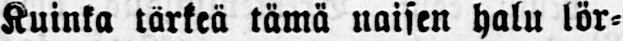Kuinka tärkeä tämä naisen halu lör-
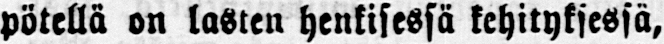pötellä on lasten henkisessä kehityksessä,
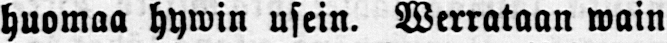huomaa hywin usein. Werrataan wain
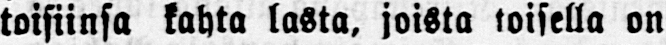toisiinsa kahta lasta, joista toisella on
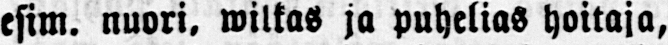esim. nuori, wilkas ja puhelias hoitaja,
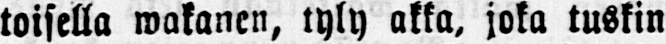toisella wakanen, tyly akka, joka tuskin
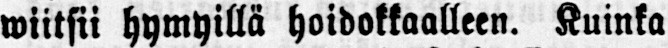wiitsii hymyillä hoidokkaalleen. Kuinka
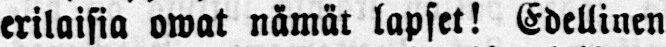erilaisia owat nämät lapset! Edellinen
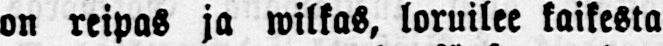on reipas ja wilkas, loruilee kaikesta
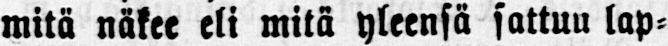mitä näkee eli mitä yleensä sattuu lap-
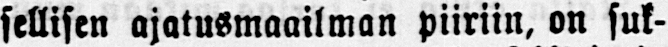sellisen ajatusmaailman piiriin, on suk-
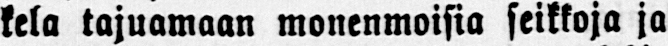kela tajuamaan monenmoisia seikkoja ja
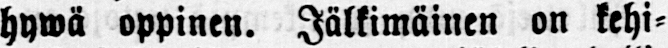hywä oppinen. Jälkimäinen on kehi-
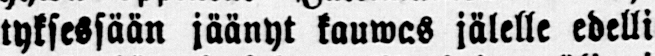tyksessään jäänyt kauwas jälelle edelli-
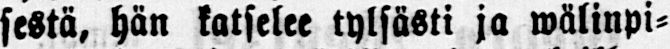sestä, hän katselee tylsästi ja wälinpi-
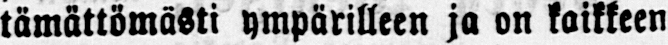tämättömästi ympärilleen ja on kaikkeen
